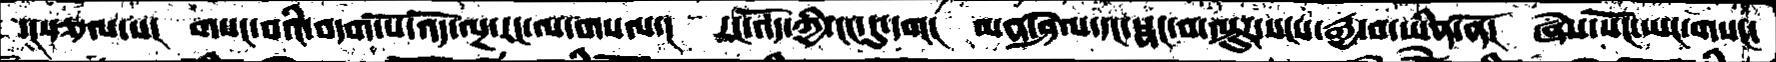་།སྩལ་པ།  གསང་བའི་བདག་པོ་འོད་ལྔ་རང་ལ་གསལ་།   རང་འོད་ཀྱི་ངང་དུ་དག།  མན་ཤེལ་དང་སྣང་བ་ལྟུར་སངས་རྒྱ་བ་ཡིན་ནོ།  ཞེས་སོཌ་ཡང་གསང་
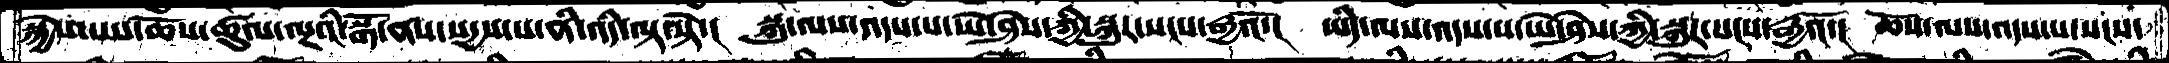སྐྱེས་པས་ཆོས་ཚུལ་ལྔའི་སྒོ་ནས་སདྱས་པ་ནི་འདི་ལྟ་སྟེ་།  སྐུ་ལས་འདས་པ་ཡེ་ཤེས་ཀྱི་སྐུར་སངས་རྒྱའོ་།  ཡིད་ལས་འདས་པ་ཡེ་ཤེས་ཀྱི་སྐུར་སངས་རྒྱའོ་།  ཆོས་ལས་འདས་པ་སངས་
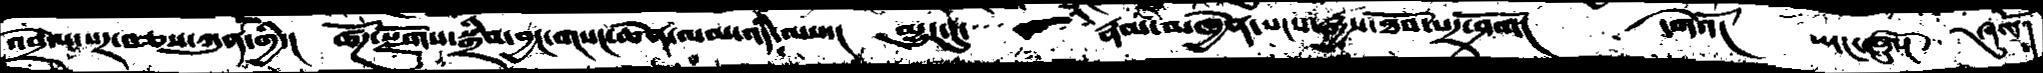འབྲེལ་པར་བཅས་ཀུན་གྱི་།  ཚོཌ་སྫོགས་སྒྲིབ་བྱང་གསང་ཆེན་ལམ་འདི་ལས་།  མྱུར་དུ་  རྣམ་མཁྱེན་སངས་རྒྱས་ཐོབ་པར་ོག།    དགེའོ།   ཡང་ཞུསོ།   ཞུསོ།
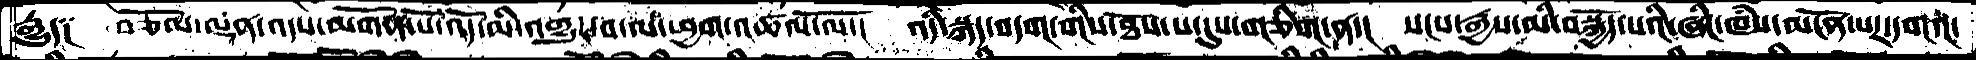རྒྱུད༑  བཅོམ་ལྡན་འདས་མགོན་པོ་འོད་མི་འགྱུར་བ་ལ་ཕྱག་འཚལ་ལོ་།  འདི་སྐད་བདག་གིས་ཐོས་པ་དུས་གཅིག་ན་།  སངས་རྒྱས་མི་བསྐྱོད་པའི་ཞིང་ཁཾས་མངོན་པར་དགའ་།
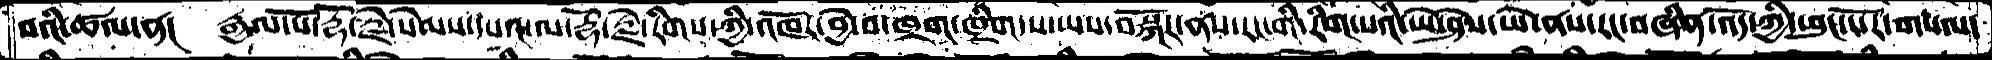བའི་ཚལ་ན།  རྒྱལ་པོ་རྡོ་རྗེ་སེམས་དཔའ་ལ་རྡོ་རྗེ་རིགས་ཀྱི་འཁོར་བྱེ་བ་ཁྲག་ཁྲིག་པ་ཡས་བསྐོར་ནས་རང་གི་རིག་པའི་ཡེ་ཤེས་ཡེ་ནས་རང་བཞིན་འོད་ཀྱི་ཕུང་པོར་གསལ་
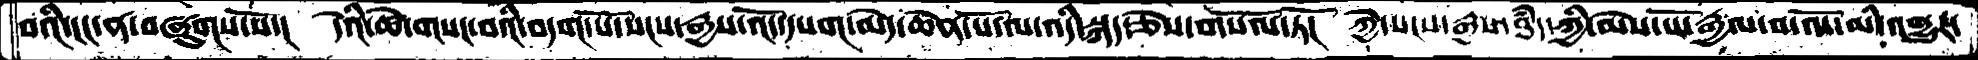བའི་ངང་ན་བཞུགས་སོ་།  དེའི་ཚེ་གསང་བའི་བདག་པོ་སངས་རྒྱས་འོད་དཔག་མེད་ཆེན་པོ་ལ་འདི་་སྐད་ཅེས་གསོལ་ཏོ།  ཀྱེ་སངས་རྒྱས་ཐདཾ་ཀྱི་མེས་པོ་རྒྱལ་བ་འོད་མི་འགྱུར་
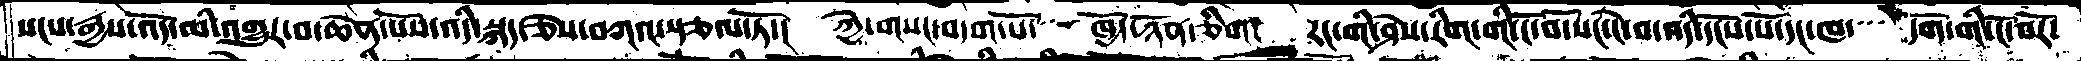སངས་རྒྱས་འོད་མི་འགྱུར་བ་ཆེན་པོས་འདི་སྐད་ཅེས་བཀའ་སྩལ་ཏོ་།  ཀྱེ་གསང་བདག་པོ་  ཁྱོད་ཉོན་ཅིག།  རང་གི་ཤེས་རིག་གི་ངོ་བོ་སང་ངེ་བ་འདི་དངོས་པོ་དང་ཁ་  དོག་གི་ངོ་བོར་
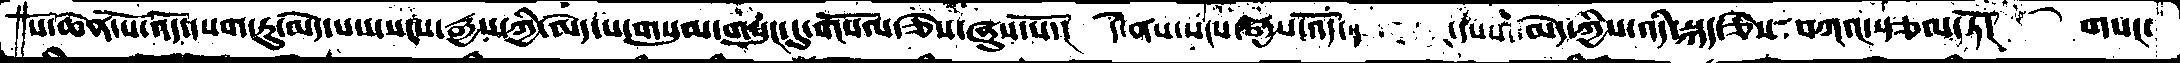པོ་ཆེན་པོ་འོད་དཔག་ཏུ་མེད་པས་སངས་རྒྱས་ཀྱི་མེད་པ་གསུམ་གསུང་དུ་གསོལ་ཅེས་ཞུས་སོ་།  དེ་ནས་སངས་རྒྱས་འོད་       དཔག་མེད་ཀྱིས་འདི་སྐད་ཅེས་ བཀའ་སྩལ་ཏོ།  གསང་
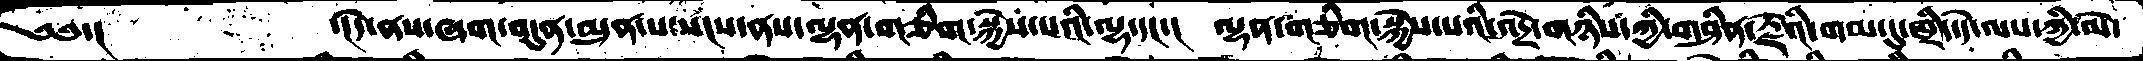༄༅་།       ་།དེ་ནས་ཞག་བདུན་མུན་པ་སངས་ནས་ལྷན་གཅིག་སྐྱེས་པའི་ལྷ་དང་།  ལྷན་གཅིག་སྐྱེས་པའི་འདྲེ་གཉིས་ཀྱི་གཤིན་རྗེའི་གམ་དུ་ཁྲིད་དེ་ལས་ཀྱི་མེ་
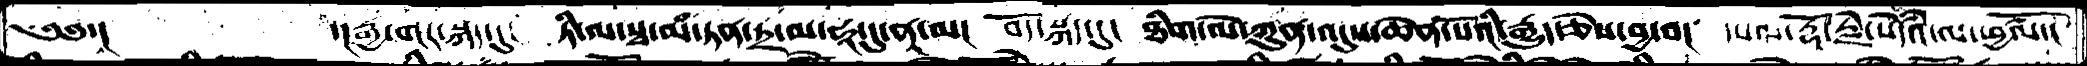༄༅་།      ་།རྒྱ་གར་སྐད་དུ།  ཏི་ལ་སྭ་མཾ་ཏན་ཏྲ་མ་ཧཱ་དུ་ནཱ་མ།  བོད་སྐད་དུ།  ཐིག་ལེ་ཀུན་འདུས་ཆེན་པོའི་རྒྱུད་ཅེས་བྱ་བ།  དཔལ་རྡོ་རྗེ་སེདཾའ་ལ་ཕྱཚལོ་།
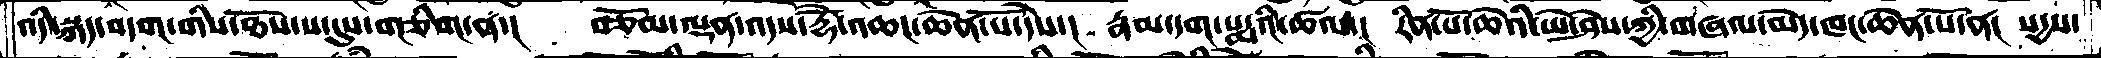འདི་སྐད་བདག་གིས་ཐོས་པ་དུས་གཅིག་ན་།  བཅོམ་ལྡན་འདས་རྡོེ་འཆང་ཆེན་པོ་དེས་།  རྣམ་དག་པདྨའི་ཚལ་།  རིན་པོ་ཆེའི་ཡེ་ཤེས་ཀྱི་གཞལ་མེད་ཁང་ཆེན་པོ་ན།  སདྱས་
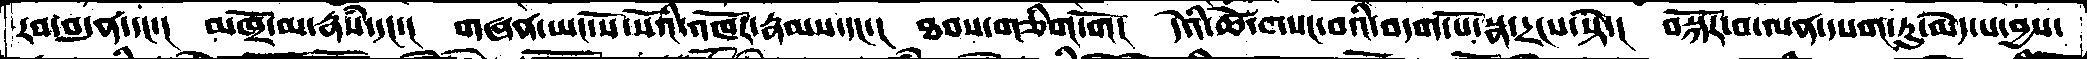རབ་བདུན་དང་།  མཁྲོ་མ་རྣཾས་དང་།  གཞན་ཡང་སོ་སོའི་འཁོར་རྣམས་དང་།  ཐབས་གཅིག་གོ།  དེའི་ཚེ་གསང་བའི་བདག་པོ་སྣ་དྲངས་སྟེ་།  བསྐོར་བ་ལན་དཔག་ཏུ་མེད་པ་བྱས་
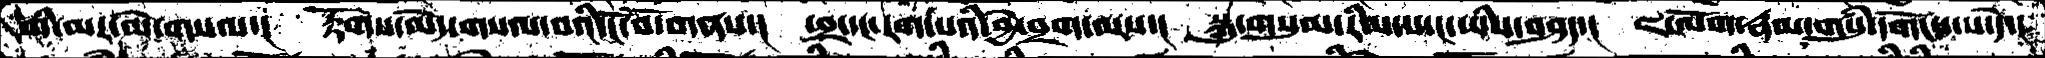གི་མར་མེ་གསལ་།  རྟོགས་མེད་གསལ་བའི་ངོ་བོ་གནས་།  ཕྲ་དང་རག་པའི་བྱེ་བྲག་ལས་།  སྐུ་གསུམ་རིམ་པ་ང་ཡིས་བཤད་།  ཇ་ལོག་རྣམ་གསུཾ་དགོངས་པ་དེ་།
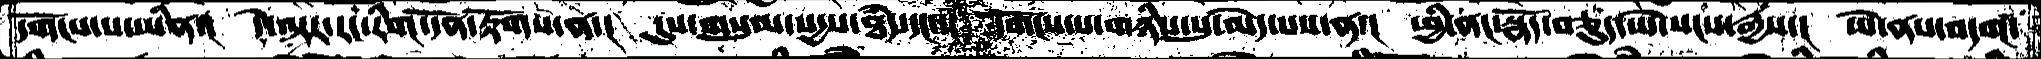དགོངས་པ་ཡིན་།  དེ་ལྟར་རང་རིག་དོན་རྟོགས་ན་།  དུས་གསུམ་སདྱས་ཐཾད་དང་་།  དགོངས་པ་གཉིས་སུ་མེད་པས་ན་།  ཕྱི་ནང་སྣོད་བཅུད་ཡེ་སངས་རྒྱས་།  ཡེ་ནས་བདག་
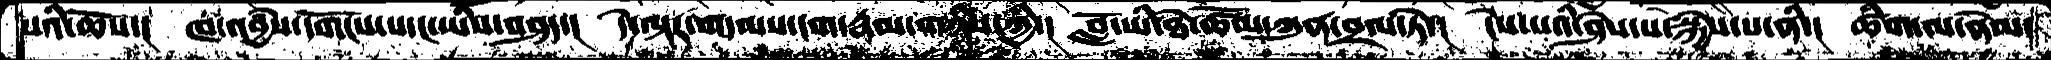པའི་ཆོས་།  ཁ་འབྱཾས་དགོངས་པ་ང་ཡིས་བཤད་།  དེ་ལྟར་གདམས་ངག་རྣམ་གཉིས་ཀྱི་།  བློ་ཡི་ཐེ་ཚོམ་ཀུན་བྲལ་ཏེ་།  ངེས་པའི་ཤེས་པ་སྐྱེས་པ་ནི་།  ཚིག་ལ་ནེམ་
